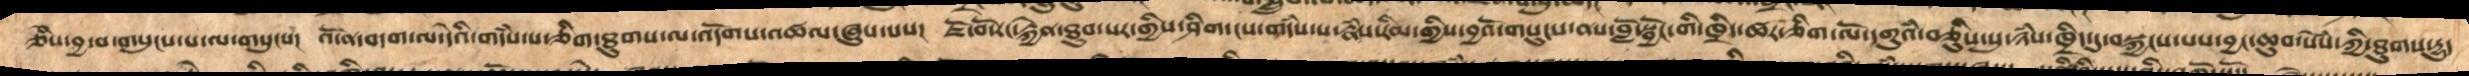ཅེས་བྱ་བ་གསུངས་པ་ལ་གསུངས། འོ་ན་བདག་ལ་དེའི་གདཾས་པ་ཅིག་ཐུགས་ལ་འདོགས་འཚལ་ཞུས་པས། ཇོ་བོ་རང་རྐྱེན་ཐུབ་པར་གྱིས་ཤིག་ངས་གདཾས་པ་རྣཾས་རིམ་གྱིས་བྱའོ་གསུངས་ནས་བློ་སྦྱོང་གི་ཁྲིད་ཚར་ཅིག་ལོ་དགུའཾ་བཅིུས་ཉཾས་ཁྲིད་དུ་བསྐྱངས་པས་བྱང་ཆུབ་ཀྱི་སེཾས་ཀྱི་ཐུགས་དྱུད
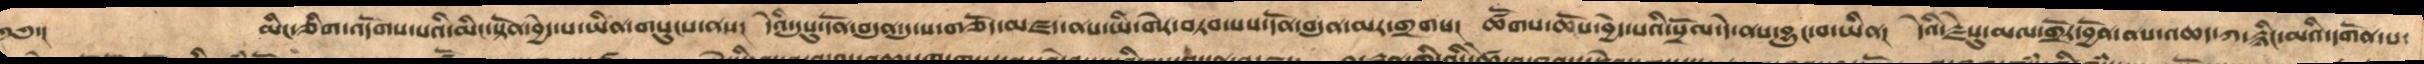༄༅་།     མིང་ཅིག་འདོགས་པའི་མིང་སྟོན་བྱེད་པ་ཡིན་གསུངས་ནས།  དེའི་དུསུ་དོན་བདུན་དུ་ས་གཅོད་མཛད་ནས་ཡི་གེར་བཏབ་པས་དོན་བདུན་མར་གྲགས།  ཚོགས་ཆོས་བྱེད་པའི་སྲོལ་དེ་ནས་བྱུང་བ་ཡིན།  དེའི་རྗེས་སུ་མལ་གྲོར་བྱོན་ནས་འཆད་ཀ་རྙིང་མའི་དགོན་པ་
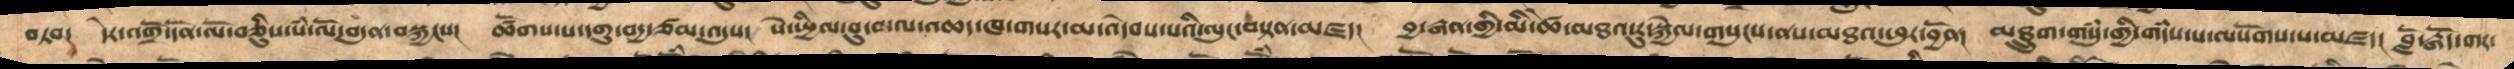བཏབ།  དེར་འགྲོ་དོན་ལོ་བཅིུས་སཾ་ལོ་བདུན་བསྐྱངས། ཚོགས་པ་དགུ་བདྱ་ཙམ་འདུས།  སེ་སྤྱིལ་བུ་བ་ལ་འཆད་ཁ་གསར་མ་འདེབས་པའི་ལུང་བསྟན་མཛད།  བྱ་རྒན་གྱི་མི་ཚེ་མཐའ་རུ་སྐྱེལ་གསུངས་ནས་མཐའ་ཕུར་བྱོན།  མཐྲུག་གསུཾ་གྱི་གདཾས་པ་ལསོགས་པ་མཛད།  བློ་རྒོད་གར་
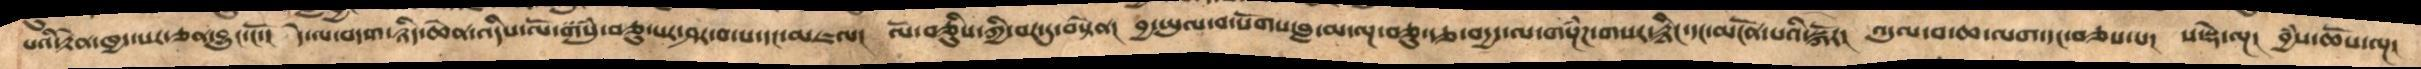པའི་རྟེན་ཁྱད་པར་ཅན་བྱུང་ངོ་།  དེ་ལ་བདག་ཉིད་ཆེན་འདིས་ལོ་གསུཾ་བཅུ་པར་ཤར་བ་པ་དང་མཇལ།  ལོ་བཅིུས་ཀྱི་བར་དུ་བསྟེན།  བྱ་ཡུལ་བ་སོགས་བླ་མ་ལྔ་བཅུ་རྩ་བདྱད་ལ་གསྔཾཌ་གསར་རྙིང་དང་མངོན་པའི་སྐོར།  འདུལ་བ་ཆ་ལག་དང་བཅས་པ། ས་སྡེ་ལྔ།  བྱཾས་ཆོས་ལྔ།
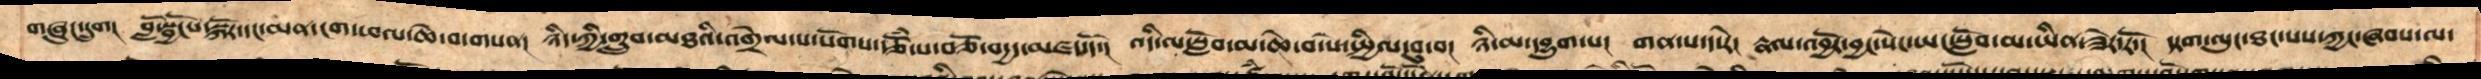གཞུང་དྲུག  བློ་སྦྱོངས་སྐོར་དང་མན་ངག་ཕལ་ཆེ་བ་གསན།  ཉིད་ཀྱི་གྲུབ་མཐའི་འགྲེལ་པ་སོགས་རྩོཾ་པ་བཅོ་བདྱད་མཛད་དོ།  འདི་ལ་སློབ་མ་ཆེ་བ་སེ་སྤྱིལ་བུ་བ།  ཉི་མ་དབྱུག་པ།  གན་ས་ད་རེ།  རྣལ་འབྱོར་བྱང་སེང་ཡང་སློབ་མ་ཡིན་ཟེར་རོ། སྟག་ལུང་ཐང་པས་ཀྱང་ཞབས་ལ་
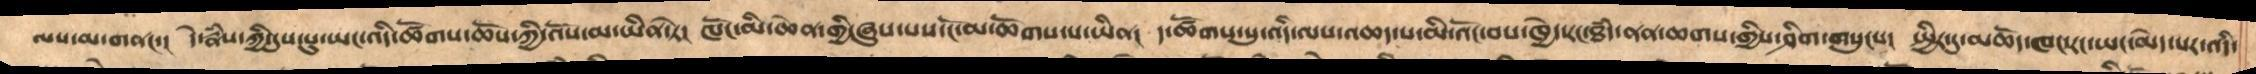ལས་མ་གནང་།  དེ་རྣཾས་ཀྱི་དུས་སུ་ཡང་འདི་ཚོགས་ཆོས་ཀྱི་འོས་མ་ཡིན་ཏེ།  ཁོང་མི་ཆེན་གྱི་ཞུས་པས་ངོ་མ་ཆོགས་པ་ཡིན།  ད་ཚོགས་སུ་འདི་ལས་འཆད་པ་མི་འོང་བས་ཁྱེད་རང་ཐཾད་ནན་ཆགས་གྱིས་ཤིག་གསུངས།  སྤྱིར་དུ་མཆོད་ཁང་རང་ཡང་མེད་པར་འདི་
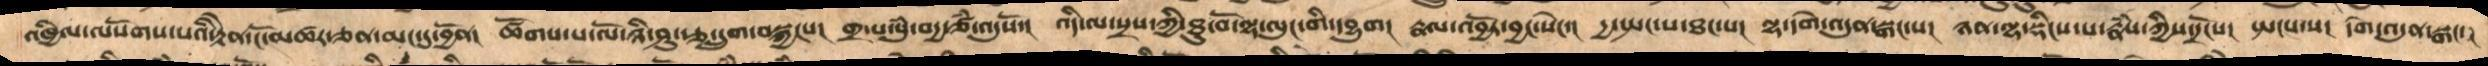འཁྱིལ་ལསོགས་པའི་རྟེན་ངོ་མཚར་ཅན་མང་དུ་བྱོན།  ཚོགས་པ་ལོ་ཉི་ཤུ་རྩ་དྲུག་བསྐྱངས།  གྲ་པ་སུཾ་བདྱ་ཙཾ་འདུསོ་།  འདི་ལ་སྲས་ཀྱི་ཐུ་བོ་ལྷ་ལུང་གི་དབྱུག།  རྣལ་འབྱོར་བྱང་སེང་།  དྱ་སྤང་ས་ཐང་པ།  ལྷ་དགེ་འདུན་སྒང་པ།  ཉན་ལྷ་སྡིངས་ས་རྣཾས་ཀྱིས་དྲོངས།  སྤངས་པ།  དགེ་འདུན་སྒང་།
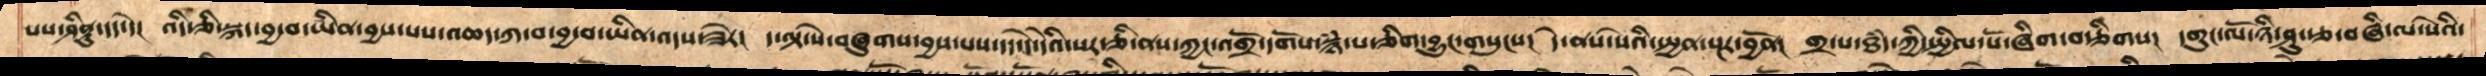པས་ཤིནྟུ་དད་དེ།  འདི་ཅི་སྐད་བྱ་བ་ཡིན་བྱས་པས་འཆད་ཀ་བ་བྱ་བ་ཡིན་འདས་ཟེར།  ད་ལྟ་སེ་བཞུགས་བྱས་པས་དད་དེ་དེའི་སར་ཅི་ནས་ཀྱང་འགྲོ་དགོས་སྙཾ་པ་ཅིག་བྱུང་གསུངས།  དེ་ནས་སེའི་སྤྱན་སྔར་བྱོན།  གྲ་པ་ཐཾད་ཀྱི་སྤྱིལ་པོ་ཞིག་བརྩིགས།   དགུང་ལོ་ཉི་ཤུ་རྩ་བཞི་ལ་སེའི་
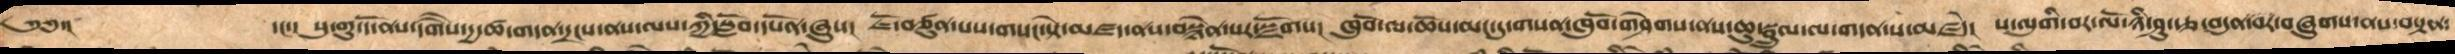༄༅་།    དང་། སུ་གུ་དོ་ནས་དགཻས་དྱ་ཚ་གདན་དྲངས་ནས་ལས་ཀྱི་སློབ་དཔོན་ཞུས།  ཇོ་བཙུན་པས་གསང་སྟེ་མཛད་ནས་བསྙེན་པར་སྫོགས།  ཁུ་བོ་ལ་ཆོས་མང་དུ་གསན་ཁུབོ་གཤེགས་ནས་ཆུ་སྦྲུལ་ལ་གདན་ས་མཛདེ།  ས་ལུགི་བར་ལོ་ཉི་ཤུ་རྩ་བདུན་བར་བཞུགས་ནས་བསྟན་
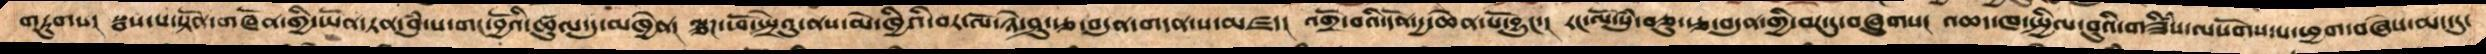གཏུགས།  སྦས་པ་སྟོན་གཞོན་གྱི་ཡོན་ཏན་བུཾ་པ་གང་བྱོའི་ཚུལ་དུ་མཁྱེན།   ལྕཌ་ཕོ་སྤྲེའུ་ནས་མེ་ཁྱའི་བར་ལོ་ཉི་ཤུ་རྩ་བདུན་གདན་ས་མཛད།  འགྲོ་བའི་དོན་དྱ་ཆེན་པོ་བྱུང་།  རང་ལོ་སུཾ་བཅུ་རྩ་བདུན་གྱི་བར་དུ་བཞུགས།   འཆད་ཁ་སྤྱིལ་བུའི་གཟིཾས་ལསོགས་པ་ཕྱག་བཞེས་མང་དུ་
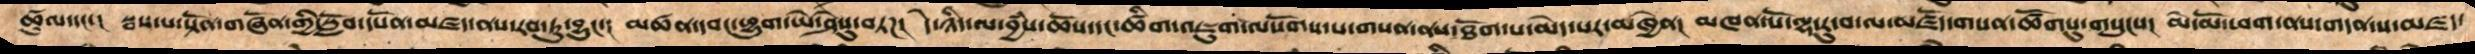ཚུལ་དང་།  སྦས་པ་སྟོན་གཞོན་གྱི་སློབ་དཔོན་མཛད་ནས་རབ་ཏུ་བྱུང་།  མཚན་དབང་ཕྱུག་ཡེ་ཤེསུ་བཏཌ།   དེ་ཉིད་ལ་བྱཾས་ཆོས་དང་ཚིག་འཇུག་ལསོགས་པ་གསན་ནས་ཐོག་པ་མེད་པར་མཁྱེན།  མཁན་པོ་ལྷ་རུ་བ་ལ་མཛོད་གསན་ཚོགསུ་གསུངས།  མེ་མོ་ཕག་ནས་གདན་ས་མཛད་
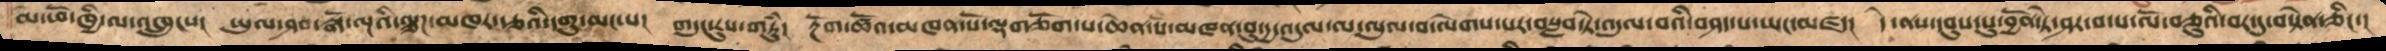མེ་ཕོ་ཁྱི་ལ་འཁྲུངས།  ཡུལ་ཤབ་སྒོ་ལྔའི་ལྕཌ་མཁར་རྩའི་དགུ་མང་པ།  གདུང་རུས་གཏུཾ།  རྔོག་ཚོན་མཁན་པོ་ལྡགཅོག་པ་ཆེན་པོ་མཁན་བུ་དྱ་འདུལ་ལ་ལུལ་བ་ལེགས་པར་བསླབ་ཏེ་འདུལ་བའི་བཤད་པ་ཡང་མཛད།  དེ་ནས་དབུས་སུ་བྱོན་ཏེ་ཤར་བ་པ་ལོ་བཅུའི་བར་ཏུ་བསྟེན་ཅིང་།
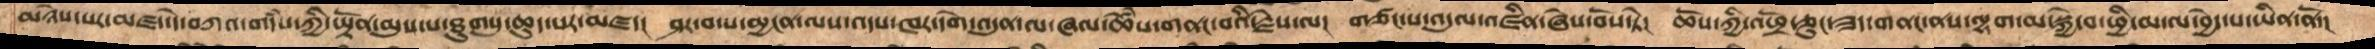མཉེས་པར་མཛད་དེ་བཀའ་གདཾས་ཀྱི་ཡྟོན་མུས་པ་ཐུགསུ་ཆུད་པར་མཛད།   ཤར་བ་མྱངན་ལས་འདས་ཁར་དགེ་འདུན་ལ་ཞལ་ཆེཾས་གནང་བའི་རྗེས་ལ།  གཙང་བ་འདུལ་འཛིན་ཞེས་བོས་ཏེ།  ཆོས་ཀྱི་འཕྲོ་ཅུང་ཟད་གནང་ནས་ལྷག་མ་སྐྱེ་བ་ཕྱི་མ་ལ་བྱེད་པ་ཡིན་ནོ་།
